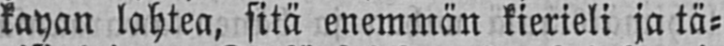kayan lahtea, sitä enemmän kierieli ja tä-
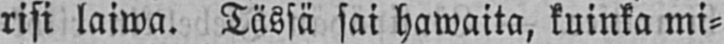risi laiwa. Tässä sai hawaita, kuinka mi-
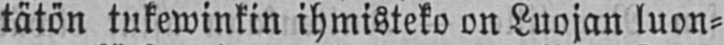tätön tukewinkin ihmisteko on Luojan luon-
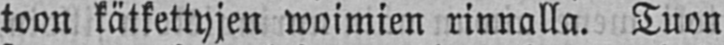toon kätkettyjen woimien rinnalla. Tuon
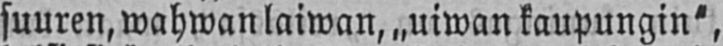suuren, wahwan laiwan, „uiwan kaupungin”,
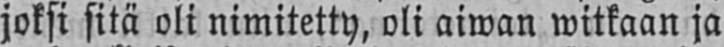joksi sitä oli nimitetty, oli aiwan witkaan ja
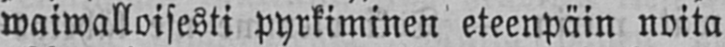waiwalloisesti pyrkiminen eteenpäin noita
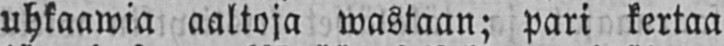uhkaawia aaltoja wastaan; pari kertaa
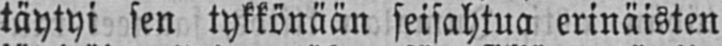täytyi sen tykkönään seisahtua erinäisten
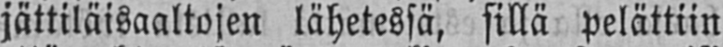jättiläisaaltojen lähetessä, sillä pelättiin
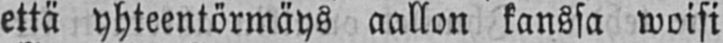että yhteentörmäys aallon kanssa woisi
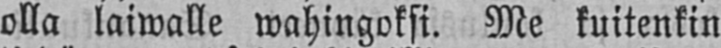olla laiwalle wahingoksi. Me kuitenkin
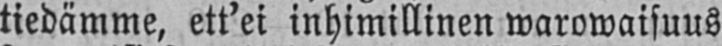tiedämme, ett'ei inhimillinen warowaisuus
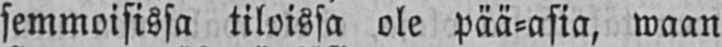semmoisissa tiloissa ole pää-asia, waan
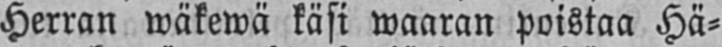Herran wäkewä käsi waaran poistaa Hä-
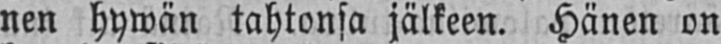nen hywän tahtonsa jälkeen. Hänen on
